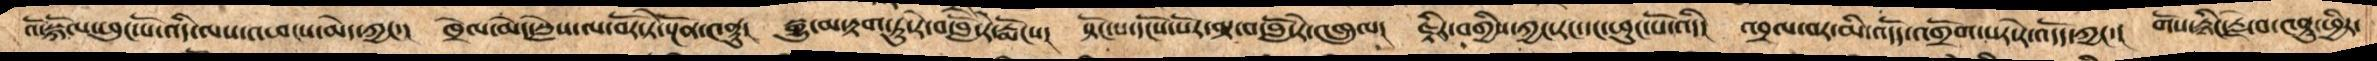འོ་སྐོལ་ཕུང་པོ་འདི་ལས་འཕངས་མེད་ཀྱང་།   ཁྲེལ་མེད་སླེས་ལ་བོར་ཏེ་སྔོན་༤ནུ།   སྒྱུ་མ་རྟག་ཏུ་རེ་བ་བློ་རེ་རྨོངས།   སྟོང་པ་དངོས་པོར་ལྟ་བ་བློ་རེ་འཁྲུལ།  ཇྟིར་བགྱིས་ཀྱང་རང་དང་ཕུང་པོ་འདི།   འབྲལ་བར་མི་འདོད་འགྲོགས་པར་རེ་འདོད་ཀྱང་།   གོས་རྙིང་རྗེ་བ་༤ནུ་ཕྱིར་
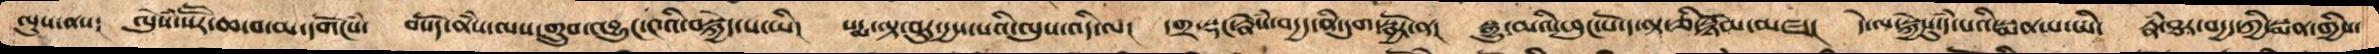ལུས་ནས།   ལེུསཾ་སཽར་ཆ་བ་མ་དགོངསཾ།   བསོད་ནསཾ་ལས་གྲུབ་འབྱུང་༤འི་བསྐྱེད་པ་ཡི།  པདྨ་ལྟ་བུར་དྱས་པའི་ལུས་འདི་ལ།   དགྲ་སྡང་རྣེསཾ་བདྱད་ནི་དུག་སྦྱོར་ན།   སྒྱུ་མའི་ཕུང་པོ་ད་ལྟ་ཇི་སྙོམ་མཛད།   དེ་ལ་སྐྱེསུ་དཾ་པའི་སྨན་པ་ཡི་   རྣཾ་ཐར་བདྱད་ཀྱི་སྨན་གྱིས་
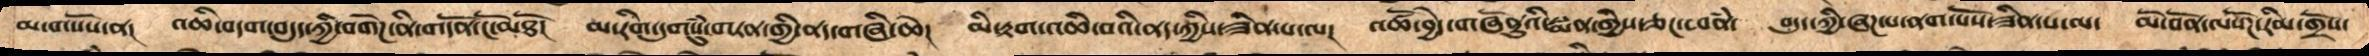མ་གསོས་ན།   འཆི་བདག་བདུད་ཀྱི་བགེཌ་ནི་གདོན་ངོ་མཐོ།  མ་རིག་དུགསུཾ་གཏན་གྱི་ནད་གཞི་ཆེ།   མི་རྟག་འཆི་བའི་ནད་ཀྱིས་ཟིན་པ་ལ།   འཚོ་བྱེད་གཞོནུའི་སྨན་གྱིས་ཅང་ཕནཾ།   བདུད་ཀྱི་ཞཌ་པ་ནག་པོས་ཟིན་པ་ལ་   མོ་བོན་ལསོཌ་རིམ་གྲོས་
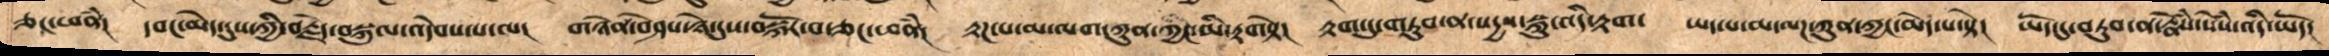ཅང་ཕནཾ།  དབང་མེད་དུས་ཀྱི་བརྗེད་བསྐུལ་འདེབས་པ་ལ།  གཉེན་བཤེས་ཉེ་དུས་བསྐོར་བ་ཅང་ཕནཾ།   རྟཌ་པ་མ་ལག་ཀུན་ཀྱང་མི་རྟགསྟེ།   རྟག་ཏུ་གཏུབ་ན་སདྱས་་སྐུ་འདི་རྟག་   ཡད་པ་མ་ལཌ་ཀུན་ཀྱང་མེད་པ་སྟེ།   ཡོད་དུ་བཏུབ་ན་རྣེསཾ་སེསཾ་འདི་ཡོད།
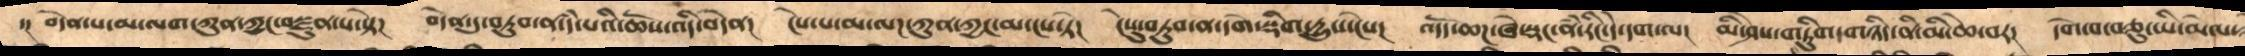་། བདེན་པ་མ་ལག་ཀུན་ཀྱང་བསྫུན་པ་སྟེ།  བདེན་དུ་བཏུབ་ན་དཾ་པའི་ཆོས་འདི་བདེན།   ངེས་པ་མ་ལཌ་ཀུན་ཀྱང་མ་ངེས་ཏེ།   ངེསུ་བཏུབ་ན་དགེ་སྡིག་དྱུས་ངེས།   འདོད་ཆཌ་ཞེ་སྡང་ནཾ་རིང་དེ་དག་ལ།   མི་ཤེས་གཏིུག་གཉིད་ནི་མི་ཆེ་བར།   དགེ་བ་བཅུ་ཡི་མེལ་
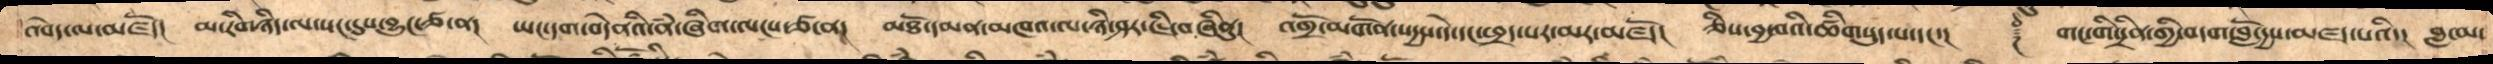འབེད་ལ་མཛོད།   མ་རིག་གཉིད་ལ་སང་དུས་བྱུང་ཙ་ན།   ཡང་དག་བདེནའི་ནཾ་ཞིག་ལངས་ཙ་ན།  མཐོ་དམན་མཁའ་ལ་ཉི་ཤར་ཇི་བཞིནུ།   འགྲོ་མགོན་སདྱས་་དེ་དང་ཕྲད་པར་མར་མཛོད།   ཅིས་བྱ་བའི་ཚིགསུད་པ་དང་།   ༈  གང་གི་དྲིན་གྱི་བདག་བློ་དྱས་མཛད་པའི་།   བླ་མ་
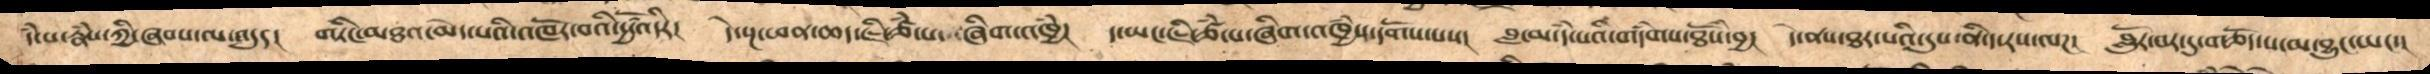དཾ་པ་རྣཾས་ཀྱི་ཞབས་ལ་འདུད།   གཏིང་མཐའ་མེད་པའི་འཁོར་བའི་དྱཚོ་འདིར།   དེ་སྔ་ཕན་ཆད་ཇི་ཙཾ་པ་ཞིག་འཁྱཾས་།   ད་ཡང་ཇི་ཙཾ་པ་ཞིག་འཁྱཾས་དགོས་པས།  བླ་མ་དཾ་པའི་གདཾགས་ཐོསཾ་བྱ།   དེ་ནས་ཐར་པའི་དུས་ནི་ད་རས་ལཌ།  བློུར་བར་དུ་གཅོད་པ་མ་བྱུང་ཡང་།
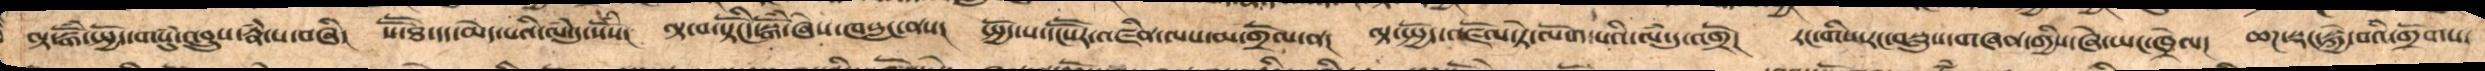ལྟ་སྒོཾ་སྤྱོད་གསུཾ་འབྲུས་རྣཾ་པ་བཞི།  སཽ་ཐ་དད་མེད་པའི་ལཾ་དུ་སེསཾ།   ལྟ་བ་སྟོངིད་སྒོཾ་ཞེས་ཁསླང་ནས།   སྤྱོད་པ་དངོསོར་འཛིན་ལས་མ་གྲོལ་ན།   ལྟ་སྤྱོད་འཛོལ་ཏེ་ལོག་པའི་ལཾ་དུ་འགྲོ།   རང་གིས་རང་བསླུས་གཞན་གྱིས་ཞེ་ཡང་ཁྲེལ།   ཆཌ་སྡང་སྐྱེ་བའི་གྲོགས་
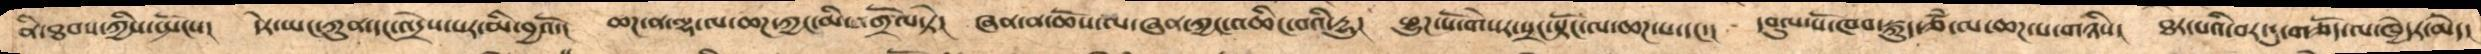ནི་ཐབས་ཀྱིས་སྤོངས།   དེར་ཡང་ཀུན་དང་འདྲིས་པར་མི་བྱའོ།   ཆཌ་ན་ལྷ་ལ་ཆཌ་ཀྱང་མི་གྲོལ་ཏེ།   ཞན་ན་ཆོས་ལ་ཞན་ཀྱང་འཆིང་བའི་དྱུ།   ཕྱུཌ་པོ་གསེར་སྲང་སྟོང་ལ་ཆཌ་པ་དང་།   དབུལ་པོ་ཁབ་སྐུད་ཙཾ་ལ་ཆཌ་པ་གཉིས།   ཐར་པའི་བར་དུ་གཅོད་ལ་ཁྱདར་མེད། །
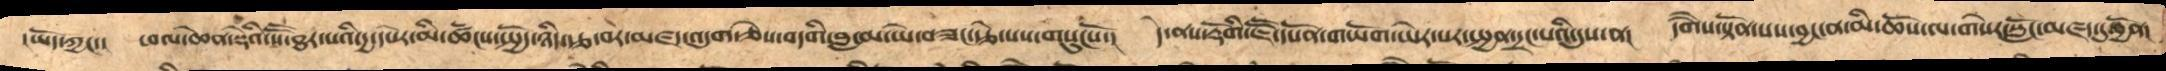།ཡོད་ཀྱང་།  ཕལ་ཆེན་སྡེའི་སཽ་ཐར་པའི་དྱ་དཔེར་མི་ཚངས་སྤྱོད་ཉིད་རྩ་བར་མཛད་འདུག་ཅེས་བདགི་བླ་མ་ཡེ་བཟང་རྩེ་པས་གསུངསོ་།   དེ་ནས་རྡོགི་ཇཽ་དཔོན་གཡོག་ཡེར་པར་སྤྱན་དྲངས་པའི་དུས་ན།   དགཻས་སྟོན་པས་བྱང་ན་མི་ཆོས་ལ་གསེར་སློང་མཛད་དུ་བྱོན།
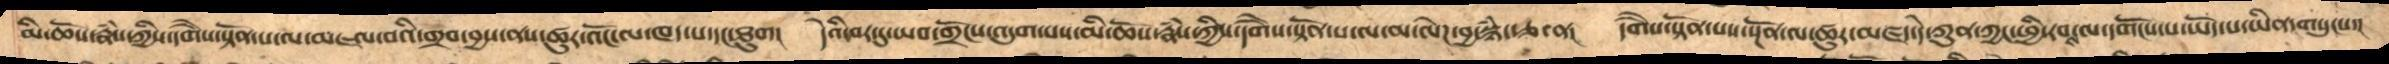མི་ཆོས་རྣཾས་ཀྱིས་དགཻས་སྟོན་པ་ལ་མཇལ་བའི་གྲབ་བྱས་ནས་ཚུར་འོང་ལ་ཁད་པ་དང་ཐུག།   དེའི་བར་དུ་ཡབ་གྲོངས་འདུག་པས་མི་ཆོས་རྣཾས་ཀྱིས་དགཻས་སྟོན་པ་ལ་མ་ལེཌ་བྱ་སྙཾ་ཙ་ན།   དགཻས་སྟོན་པས་སྔོན་ལ་ཚུར་མཛད་དེ་ཀུན་ཀྱང་ཕྱི་རབས་ལ་དགོངས་པ་ཡོད་པ་ཡིན་གསུངས་།
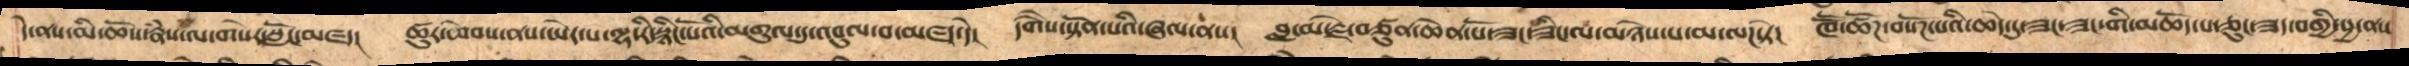དེ་ནས་མི་ཆོས་རྣཾས་ལ་གསེར་སློང་མཛད།   ཚུར་ཕེབས་ནས་ཡེར་པ་ལྷ་རི་སྙིང་པོའི་མགུལ་དུ་འབུལ་བ་མཛད་དེ།   དགཻས་སྟོན་པའི་ཞལ་ནས།   བླ་མ་རྗེ་བཙུན་ཆེན་པོ་ཟང་ཟིང་ལ་གཉེས་པ་མ་ལཌ་ཏེ།  ཁཽ་ཚོཌ་བསོཌ་པའི་ཆེད་དུ་ཟང་ཟང་གི་མཆོད་པ་ཅུང་ཟད་བགྱི་སྱ་ནས
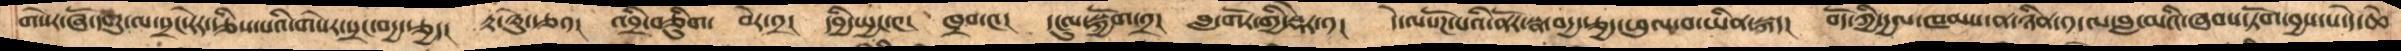གསེར་ཞོ་དགུ་ལ་སྲང་རེར་རྩིས་པའི་གསེར་སྲང་བདྱ་རྩྱད།   རྟ་ཉིུ་རྩ༡།  འབྲི་བཅིུག་   བེར་༢།   དབྱི་སྤྱང་༤།  ཁྲབ་༤།   དངུལ་སྐྱོག་༢།   བླ་གོར་གྱི་སྡེར་༡།   དེ་ལསོཌ་པའི་ནོར་སྣ་བདྱ་རྩྱད་ཕུལ་བ་ཡིན་སྐད།    བོད་ཀྱི་དྱལ་ཁམས་ན་ཉིན་༡་ལ་བླ་མའི་ཞབས་ཏོག་བྱས་པ་དེ་ཆེ
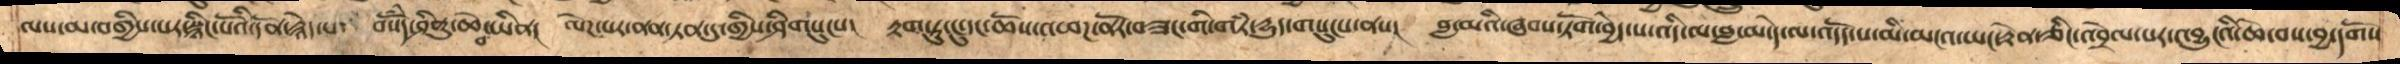ལས་མ་བགྱིས་པར་སྙིང་པོའི་དོན་རྙེད་པ་  བསོཾད་ཤིནུ་ཆེ་བ་ཡིན།  ལེཌ་པར་ནན་ཏན་དུ་གྱིས་ཤིགསུངས།  རྟག་ཏུ་ངུ་དང་ཆོས་འཕཌ་ནོར་བཟང་གི་གཏཾ་དྱུད་གསུངས་ནས།  བླ་མའི་ཞབས་ཏོག་བྱེད་པ་འདི་ལ་བླ་མ་དེ་ལ་འདོད་པ་མི་མངའ་ཡང་རྟེན་ཅིང་འབྲེལ་པར་འབྱུངའི་ཆེ་བས་བྱ་དགོས་
